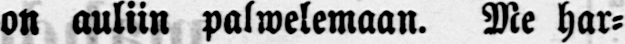on auliin palwelemaan. Me har-
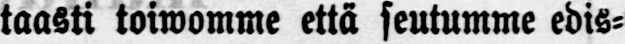taasti toiwomme että seutumme edis-
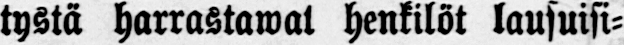tystä harrastawat henkilöt lausuisi-
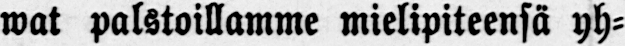wat palstoillamme mielipiteensä yh-
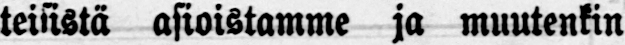teisistä asioistamme ja muutenkin
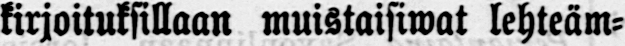kirjoituksillaan muistaisiwat lehteäm-
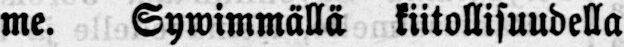me. Sywimmällä kiitollisuudella
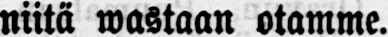niitä wastaan otamme.
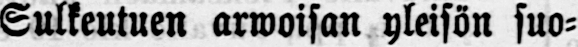Sulkeutuen arwoisan yleisön suo-
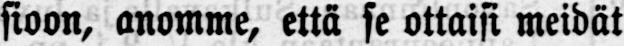sioon, anomme, että se ottaisi meidät
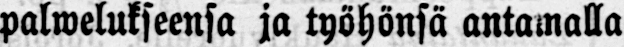palwelukseensa ja työhönsä antamalla
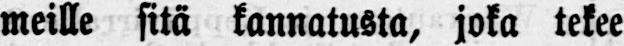meille sitä kannatusta, joka tekee
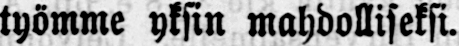työmme yksin mahdolliseksi.
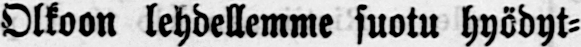Olkoon lehdellemme suotu hyödyt-
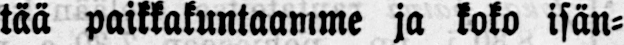tää paikkakuntaamme ja koko isän-
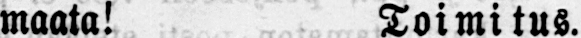maata! Toimitus.
